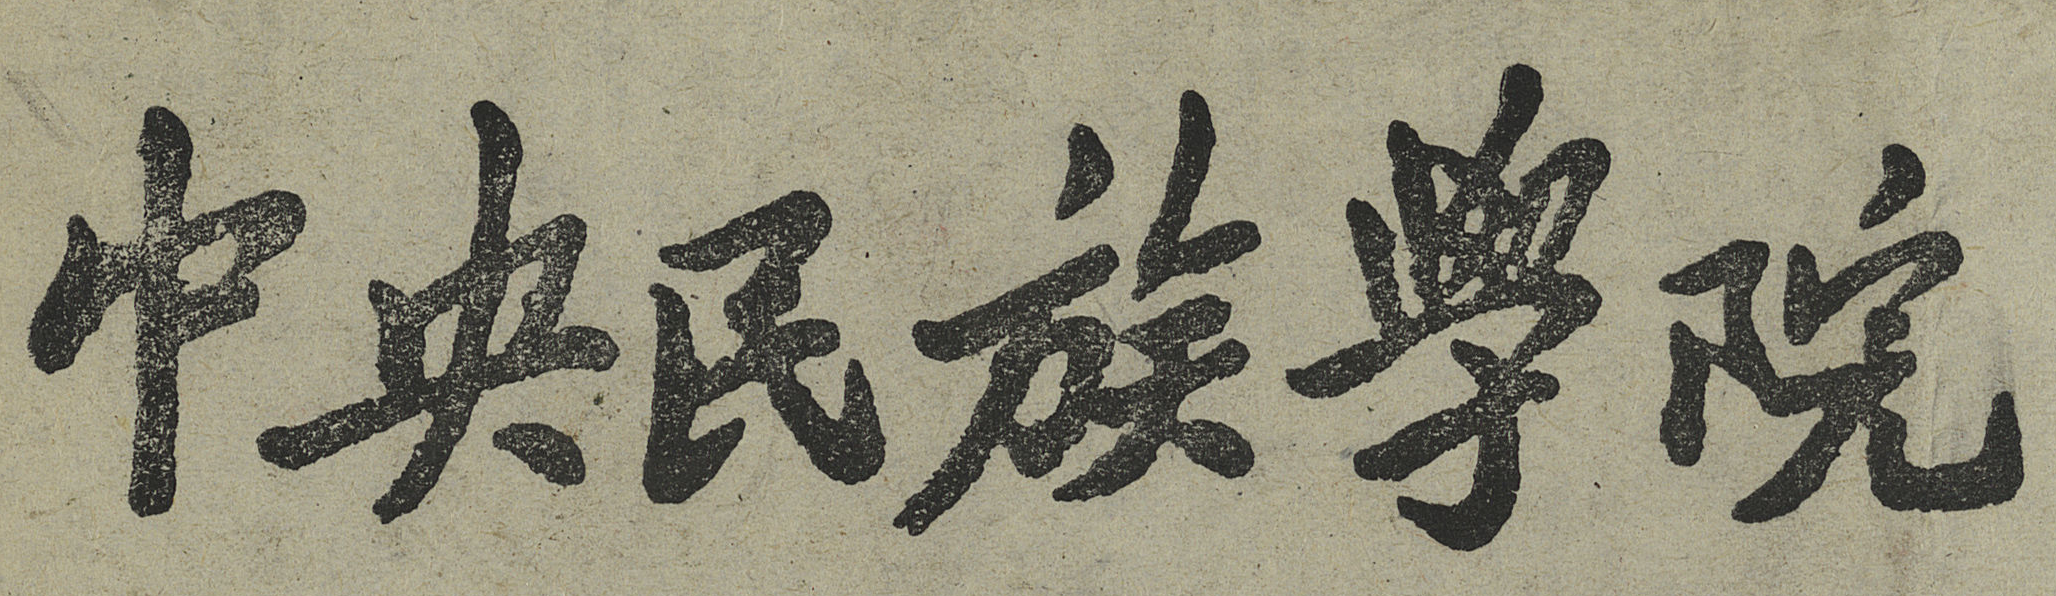中央民族學院
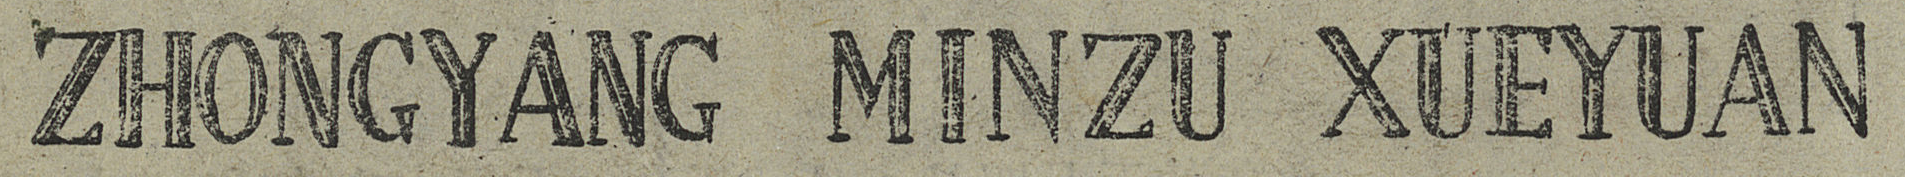ZHONGYANG MINZU XUEYUAN
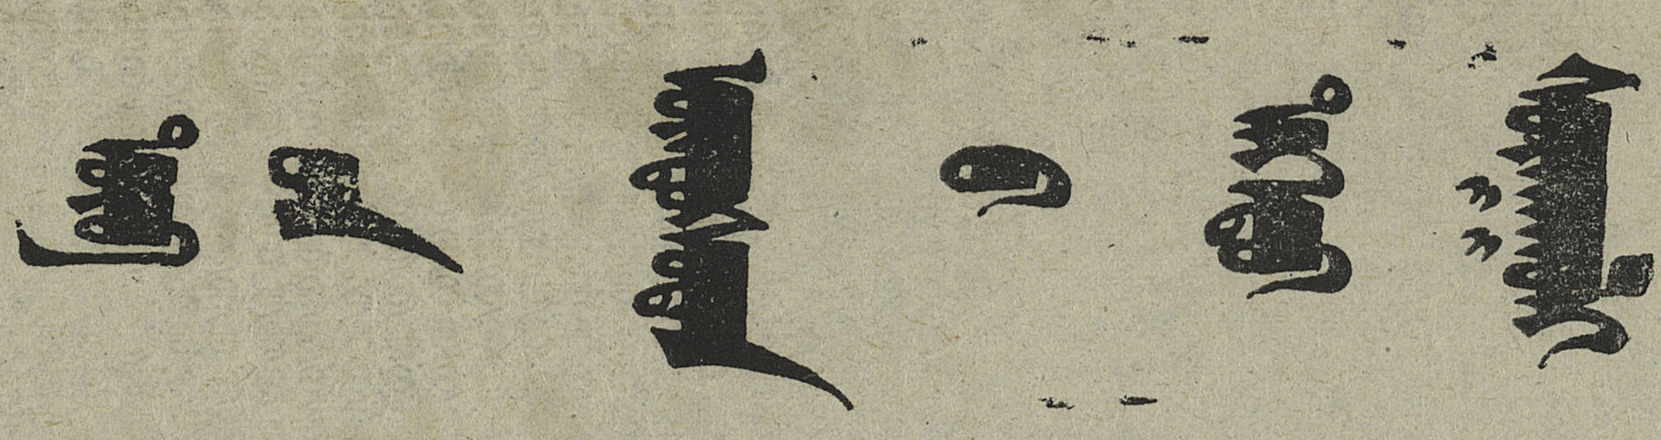ᠲᠥᠪ ᠦᠨ ᠦᠨᠳᠦᠰᠦᠲᠡᠨ ᠦ ᠳᠡᠭᠡᠳᠦ ᠰᠤᠷᠭᠠᠭᠤᠯᠢ
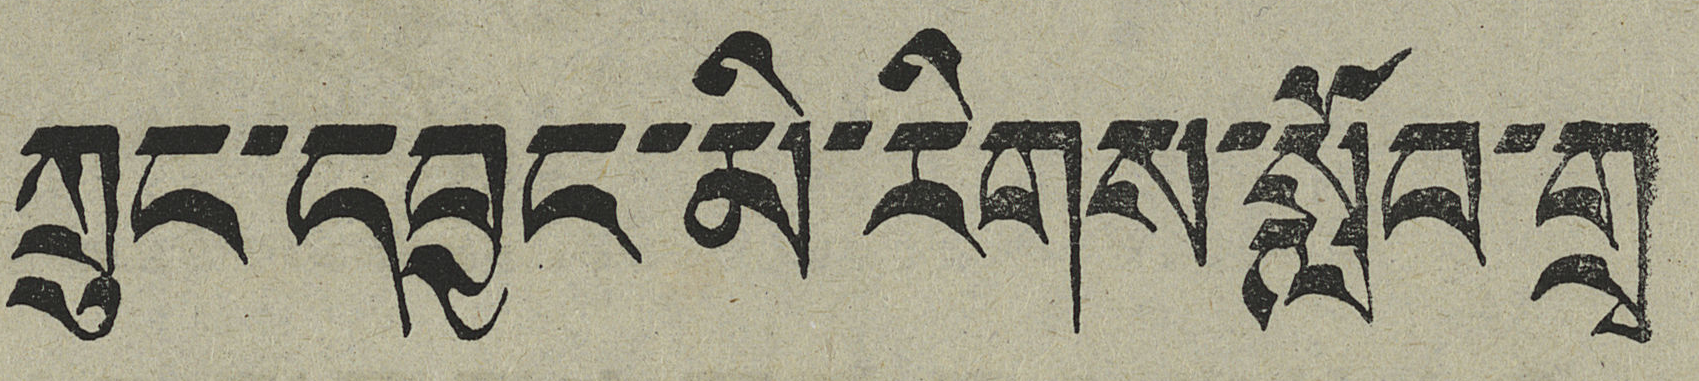ཀྲུང་དབྱང་མི་རིགས་སློབ་གྲྭ
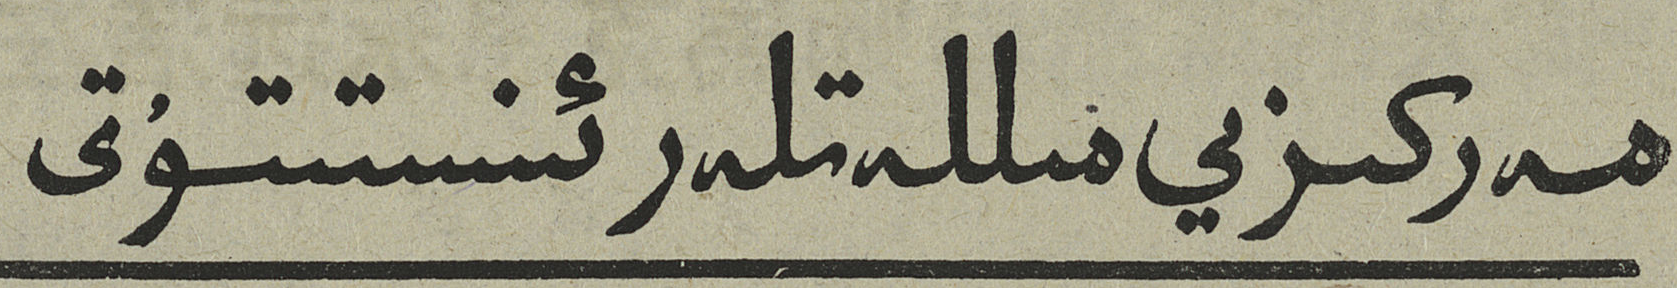مەركىزىي مىللەتلەر ئىنستىتۇتى
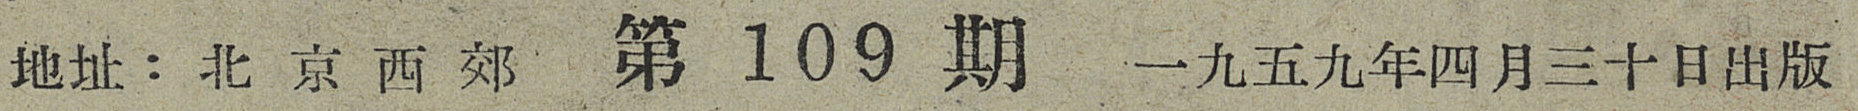地址：北 京 西 郊 第 109 期 一九五九年四月三十日出版
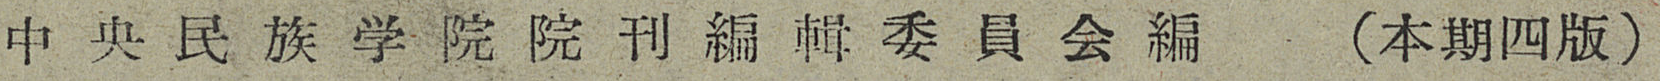中央民族学院院刊編輯委員會編 （本期四版）
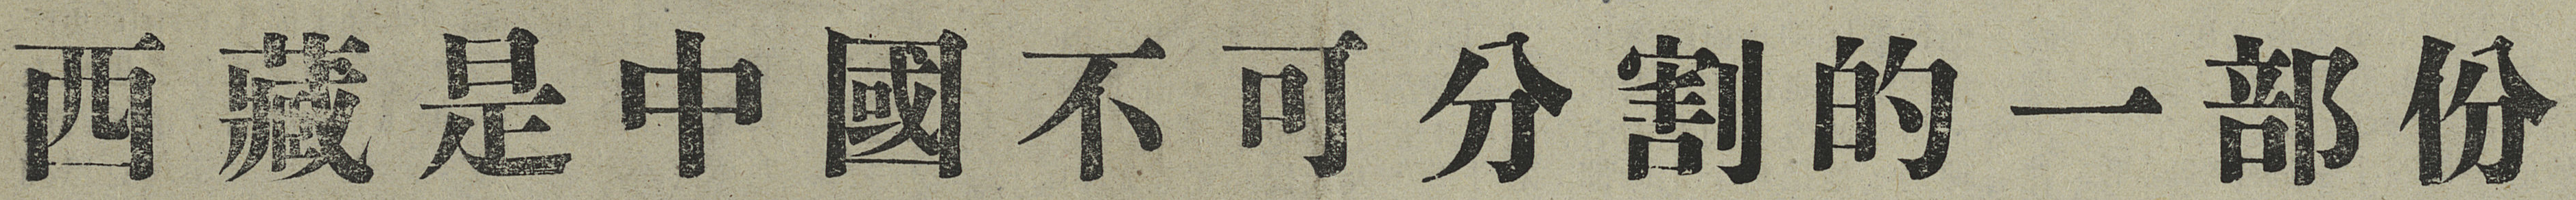西藏是中國不可分割的一部份
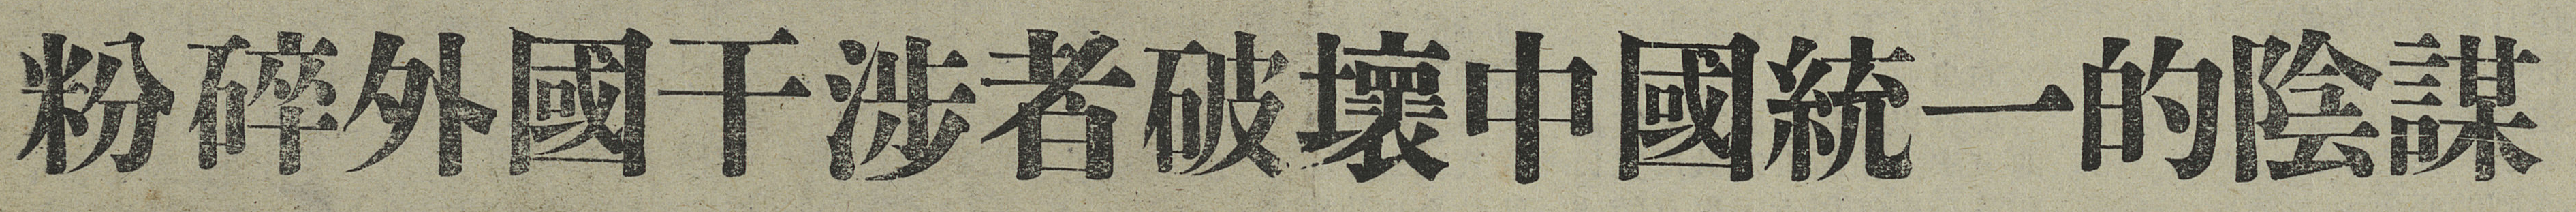粉碎外國干涉者破壞中國統一的陰謀
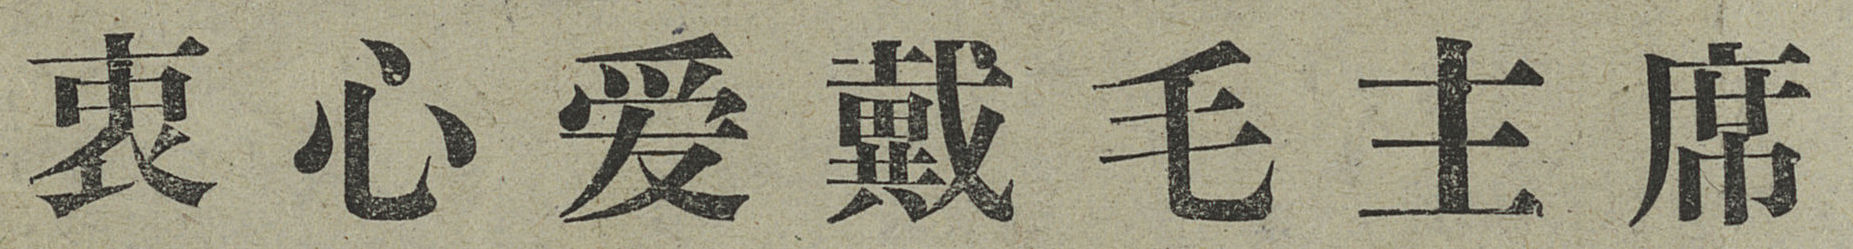衷心爱戴毛主席
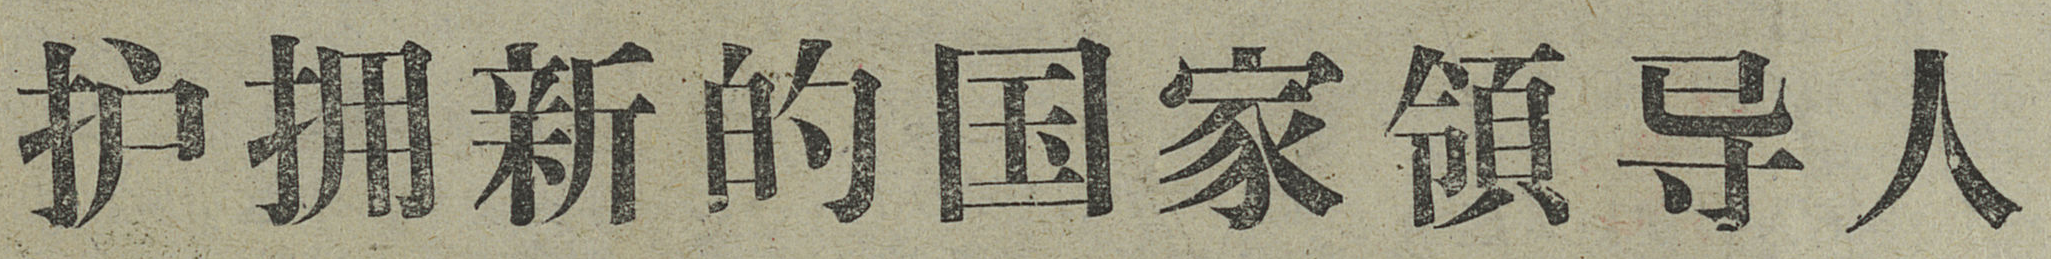护拥新的国家領导人
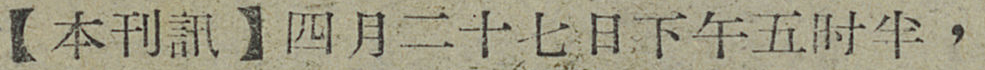【本刊訊】四月二十七日下午五时半，
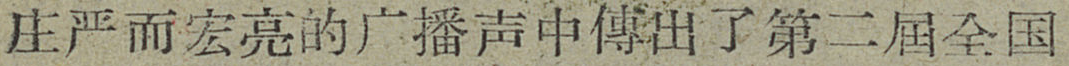庄严而宏亮的广播声中傳出了第二屆全国
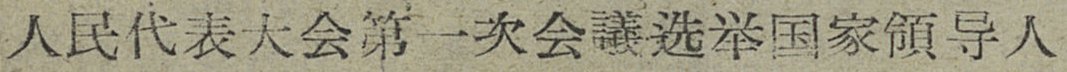人民代表大会第一次会議选举国家領导人
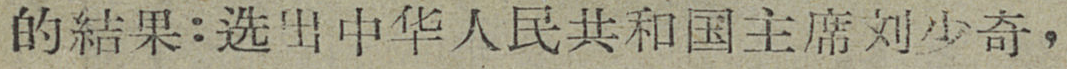的結果：选出中华人民共和国主席刘少奇，
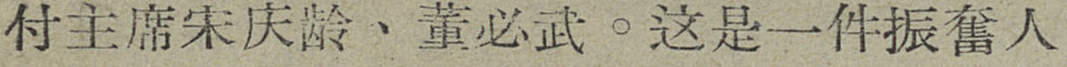付主席宋庆龄、董必武。这是一件振奮人
